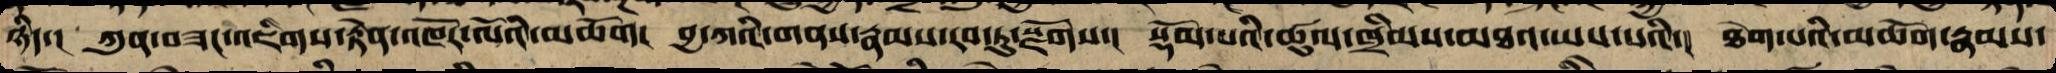ཉིད་།  ཀུན་བཟང་འཇིགས་རྟེན་འཁོར་ལོའི་མཆོག། བྱ་དཀའི་གནས་རྣམས་རབ་ཏུ་སྫོགས་། སྡོམ་པའི་ཚུལ་ཁྲིམས་མཐའ་ཡས་པའི་། ཐེག་པའི་མཆོག་རྣམས་
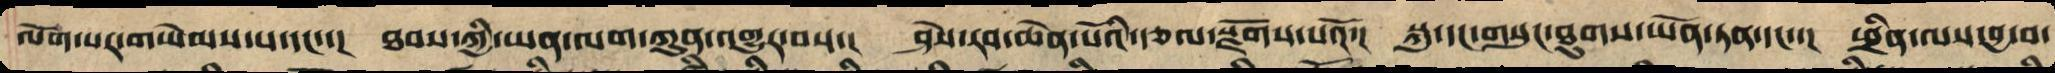ལོག་པར་གཡེམས་པ་དང་་། ཐབས་ཀྱི་ཡན་ལག་ཀུན་འགྱུར་བས་། ཤེས་རབ་ཆེན་པོའི་རྩལ་སྫོགས་པའོ་། སྐུ་དང་གསུང་ཐུགས་ཡོན་ཏན་དང་་། ཕྲིན་ལས་བྱ་བ་
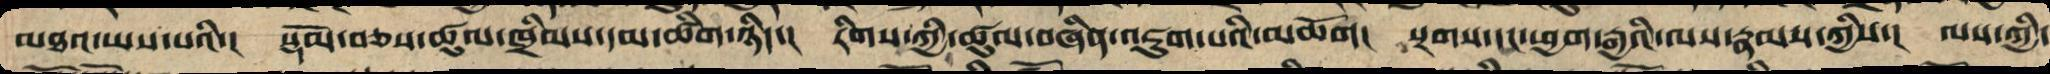མཐའ་ཡས་པའི་། སྡོམ་བཅས་ཚུལ་ཁྲིམས་དམ་ཚིག་ཉིད་། རིགས་ཀྱི་ཚུལ་བཞིན་འཇུག་པའི་མཆོག། སྔགས་དང་ཕྱག་རྒྱའི་ལས་རྣམས་ཀྱིས་། ལས་ཀྱི་
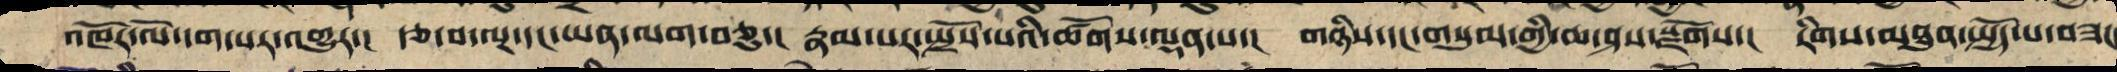འཁོར་ལོ་དག་པར་འགྱུར་། རྩ་བ་ལྔ་དང་ཡན་ལག་བཅུ་། རྣམ་པར་སྤྲོས་པའི་ཚོགས་ལྡན་པས་། གཉིས་དང་གསུམ་གྱི་ཆ་ཤས་སྫོགས་། རིགས་མཐུན་སྤྱོད་པ་བཟང
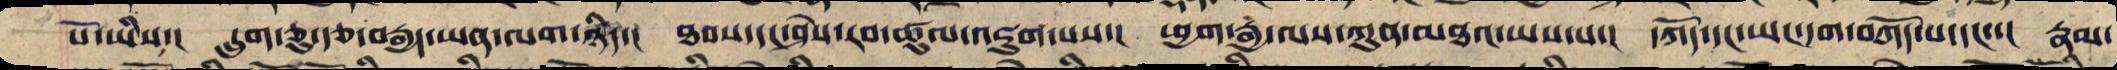པོ་ཡིས་། དྲུག་ཅུ་རྩ་བརྒྱད་ཡན་ལག་ཉིད་། ཐབས་དང་ཤེས་རབ་ཚུལ་འཇུག་པས་། ཕྱག་རྒྱ་ལས་ཀུན་མཐའ་ཡས་པ་། བཀོད་དང་ཡང་དག་བཀོད་པ་དང་་། རྣམ་
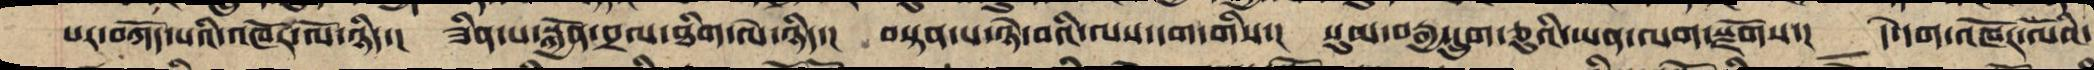པར་བཀོད་པའི་འཁོར་ལོ་ཉིད་། ཟིན་པ་སྐྱོན་བྲལ་ཐིག་ལེ་ཉིད་། བསྟན་པ་ཉེ་བའི་ལས་དག་གིས་། སུམ་བརྒྱ་དྲུག་ཅུའི་ཡན་ལག་སྫོགས་། དེ་དག་འཁོར་ལོའི་
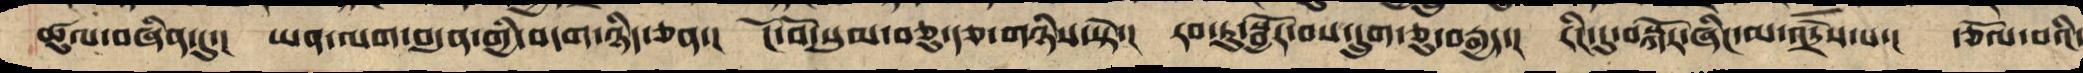ཚུལ་བཞིན་དུ་། ཡན་ལག་བདུན་གྱི་བདག་ཉིད་ཅན་། ངོ་བོ་སུམ་བཅུ་རྩ་གཉིས་སྟེ་། རབ་ཏུ་སྦྱོར་བས་དྲུག་ཅུ་བརྒྱད་། རིང་དུ་བསྐོར་ཞིང་མ་འདྲེས་པ་། རྩོལ་བའི་
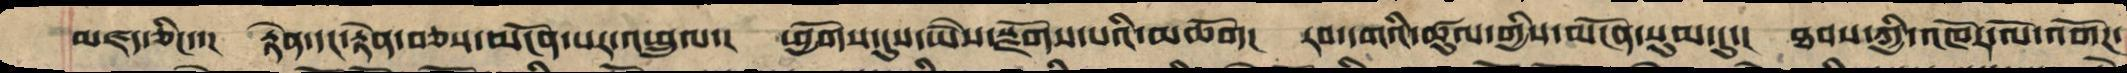མཛད་ཅིང་་། རྟེན་དང་བརྟེན་བཅས་མངོན་པར་འཕྲུལ་། ཕྱོགས་དུས་ཡཻས་སྫོགས་པའི་མཆོག། རབ་དགའི་ཚུལ་གྱིས་མངོན་སུམ་དུ་། ཐབས་ཀྱི་འཁོར་ལོ་འགོཌ་
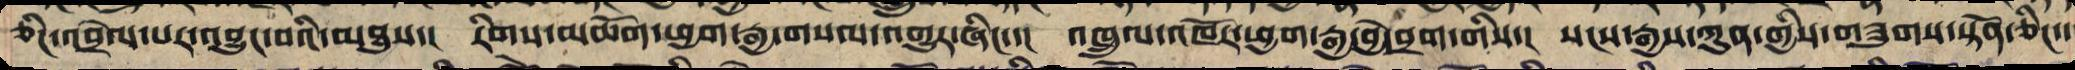ཅིང་འབྲེལ་པར་འབྱུང་བའི་མཐུས་། རིགས་མཆོག་ཕྱག་རྒྱ་གསལ་འགྱུར་ཞིང་་། འཁྲུལ་འཁོར་ཕྱག་རྒྱ་བྱེ་བྲག་གིས་། སངས་རྒྱས་ཀུན་གྱིས་གཟུགས་སྟོན་ཅིང་་
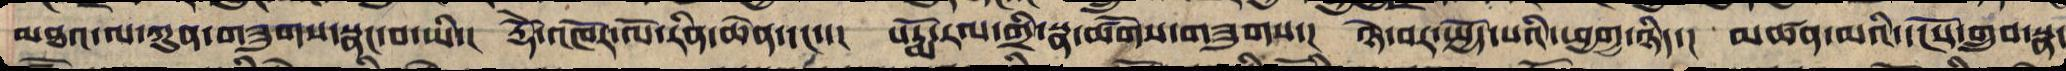མཐའ་ལ་ཀུན་གཟུགས་སྣང་བ་ཡི་། རྡོཻ་འཁོར་ལོ་རིན་ཆེན་དང་་། པདྨོ་རལ་གྲི་སྣ་ཚོགས་གཟུགས་། ཉེ་བར་སྤྱོད་པའི་ཕྱགྱ་ཉིད་། མཚན་མའི་དངོས་གྲུབ་སྣ་
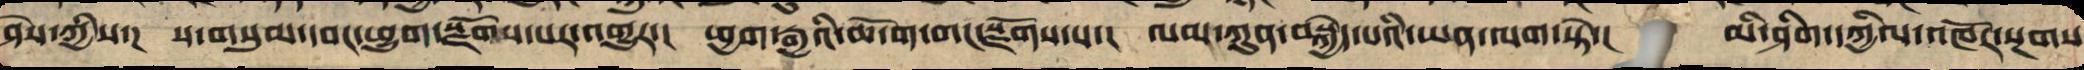ཤེས་ཀྱིས་། ས་གསུམ་དབང་ཕྱུག་སྫོགས་པར་འགྱུར་། ཕྱག་རྒྱའི་ཆོ་ག་གང་སྫོགས་པ་། ལམ་ཀུན་བསྐྱེད་པའི་ཡན་ལག་སྟེ་། མི་ཤིགས་དཀྱིལ་འཁོར་སྔགས
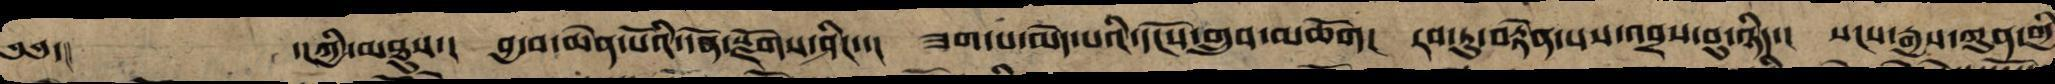༄༅།            ་།ཀྱི་མཐུས་། བྱ་བ་ཆེན་པོའི་དོན་སྫོགས་ཤིང་་། ཟག་པ་མེད་པའི་དངོས་གྲུབ་མཆོག། རབ་ཏུ་བརྟེན་པས་འབྲས་བུ་ཉིད་།  སངས་རྒྱས་ཀུན་གྱི
